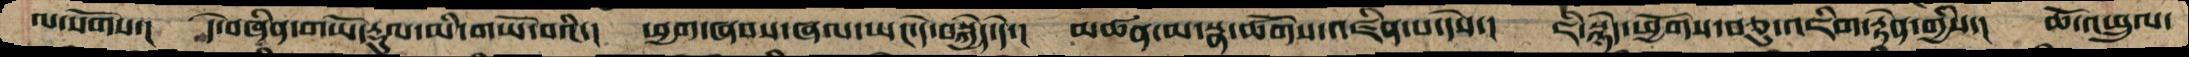ལ་སོགས་།  དེ་བཞིན་གཡོ་རྟུལ་མི་གཡོ་བའི་།  ཕྱག་ཞབས་ཞལ་ཡང་དེ་བསྐྱེད་དེ་།  མཚན་མ་སྣ་ཚོགས་འཛིན་པ་དེས་།  ཇི་སྙེད་ཕྱོགས་བཅུ་འཇིག་རྟེན་གྱིས་།  ཆོ་འཕྲུལ་
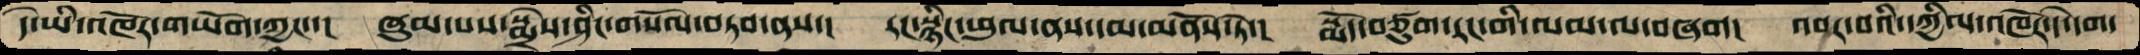དེ་ཡི་འཁོར་གཡོག་ཀྱང་་།  ཞུམ་པས་སྨྲེས་ཤིང་གསོལ་བཏབ་ནས་།  རང་སྙིང་ཕུལ་ནས་དམ་མནོས་ཏེ་།  སྨོད་བཙུག་རང་གི་ལམ་ལ་བཞག།  འབར་བའི་དཀྱིལ་འཁོར་དེ་དག་
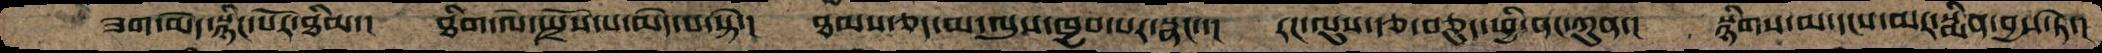ཟག་མེད་སྙིང་པོར་ཐིམ་།  ཐིག་ལེ་སྤྲོས་པ་མེད་པ་སྟེ་།  ཐམས་ཅད་མ་ལུས་ཁྱབ་པར་སྣང་་།  རང་ལུས་རྩ་བཅུད་ཕྱི་ནང་ཀུན་།  སྙིགས་མ་དངས་མར་སྨིན་བྱས་ཏེ་།
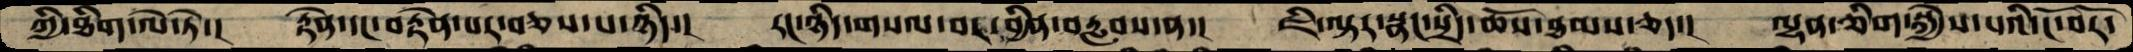ཀྱི་ཐིག་ལེ་ཏེ་།   རྟེན་དང་བརྟེན་པར་བཅས་པ་ཉིད་།  རང་ཉིད་གསལ་བར་བྱིན་བརླབས་ན་།  ཇི་ལྟར་སྣང་སྲིད་ཆོས་ཐམས་ཅད་།   ལྷན་ཅིག་སྐྱེས་པའི་ངོ་བོར་
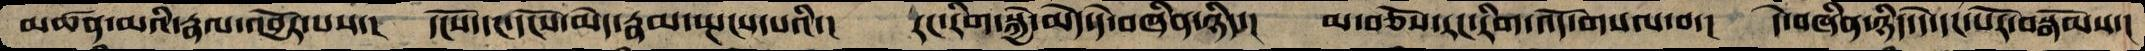མཚན་མའི་རྣལ་འབྱོར་པས་།  དངོས་དང་དངོས་མེད་རྣམ་སྤངས་པའི་།  རང་རིག་སྐྱེ་མེད་དེ་བཞིན་ཉིད་།  མ་བཅོས་རང་རིག་འོད་གསལ་བ་།  དེ་བཞིན་ཉིད་དེ་དང་པོར་བསྒོམས་།
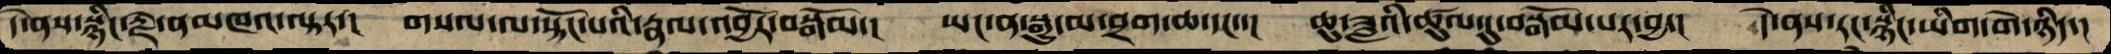དེ་ནས་སྙིང་རྗེ་ནམཁའ་ལྟར་།   གསལ་ལ་སྟོང་པའི་རྣལ་འབྱོར་བསྒོམ་།  ཡང་ན་སྒྱུ་མ་བྲག་ཆ་དང་་།  ཆུ་ཟླའི་ཚུལ་དུ་བསྒོམ་པར་བྱ་།  དེ་ནས་རང་སྙིང་ཡིག་གེ་ཉིད་།
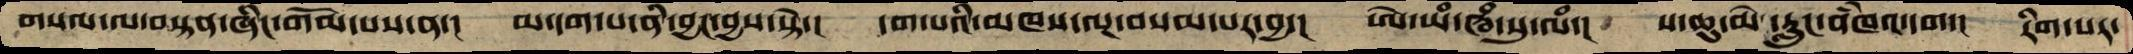གསལ་ལ་བསྟན་ཞིང་གོམ་པས་ན་།  མ་དག་པ་ནི་བྱང་བྱས་སྟེ་།  དག་པའི་མཁས་ལྔ་བསམ་པར་བྱ་།   ཨེ་ཡཾ་ཝཾ་སུ་ལཾ་།  ས་ཆུ་མེ་རླུང་ནཾཁའ་དག་།  རིག་པར་
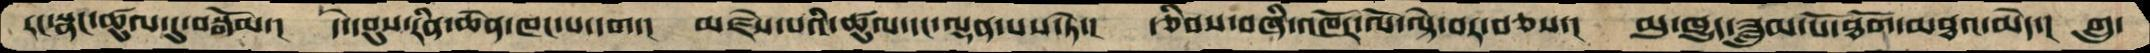རང་སྣང་ཚུལ་དུ་བསྒོམ་།   དེ་དབུས་རིན་ཆེན་ཁང་པ་དག་།  མཛེས་པའི་ཚུལ་དང་ལྡན་པས་ཏེ་།  རྩིབས་བཞི་འཁོར་ལོ་ལྟེ་བར་བཅས་།  མུ་ཁྱུད་ཟླུམ་པོ་ཐོག་མཐའ་མེད་།  གྲུ་
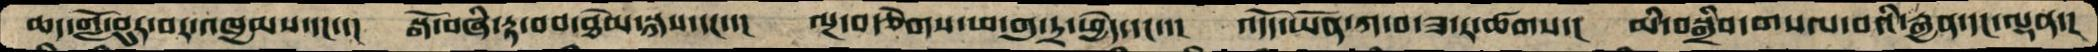ཆད་གློ་བུར་བར་འཁྱམས་དང་་།  སྒོ་བཞི་རྟ་བབ་ཐེམ་སྐས་དང་་།  ལྔ་བརྩེགས་ཕ་གུ་དྲ་ཕྱེད་དང་་།  འདོད་ཡོན་ཀ་བ་ཟ་ར་ཚགས་།  མི་བསྒྲིབ་གསལ་བའི་རྒྱན་དང་ལྡན་།
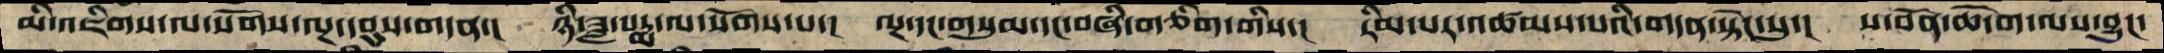མི་འཇིགས་ལ་སོགས་ལྔ་དབུས་གདན་།  ཉི་ཟླ་པདྨ་ལ་སོགས་པ་།  ལྔ་དང་གསུམ་དང་བཞི་གཅིག་གིས་།  རིམ་པར་འཚམས་པའི་གདན་སྟེང་སུ་།   ས་བོན་ཆོ་ག་ལས་བྱུང་
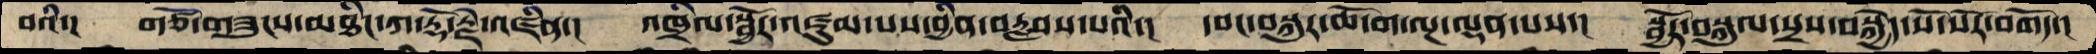བའི་།   གཙོ་གཟུངས་མཐིང་ཀ་རྡོ་རྗེ་འཛིན་།   འཁྲིལ་སྦྱོར་འཛུམ་པས་བྱིན་བརླབས་པའི་།  དབང་བསྐུར་ཆོ་ག་ལྔ་ལྡན་པས་།  སྦྱོར་བསྐུལ་སྲས་བསྐྱེད་སོ་སོར་བགོད་།
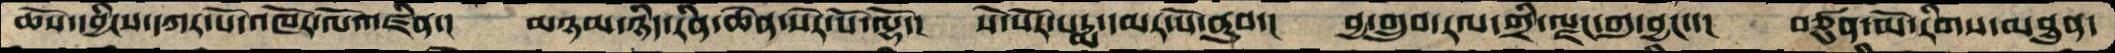ཆོས་དབྱིངས་དཀར་པོ་འཁོར་ལོ་འཛིན་།   མཉམ་ཉིད་རིན་ཆེན་སེར་པོ་ལྷོ་།  སེ་སོར་པདྨ་དམར་པོ་ནུབ་།  བྱ་གྲུབ་རལ་གྲི་ལྗང་གུ་བྱང་་།  བཙུན་མོ་རིགས་མཐུན་
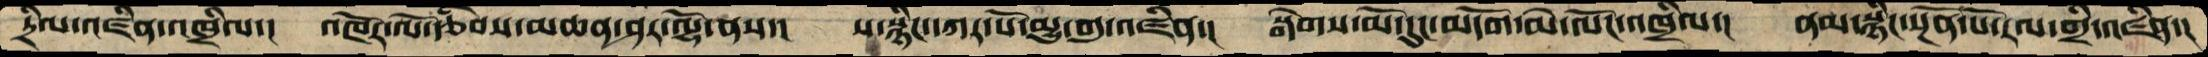དྲིལ་འཛིན་འཁྲིལ་།  འཁོར་ལོ་རྩིབས་མཆན་ཤར་ལྷོ་ནས་།  ས་སྙིང་དཀར་པོ་མྱུ་གུ་འཛིན་།  སྒེགས་མོ་དུང་མདོག་མེ་ལོང་འཁྲིལ་།  ནམ་སྙིང་སྔོན་པོ་རལ་གྲི་འཛིན་།
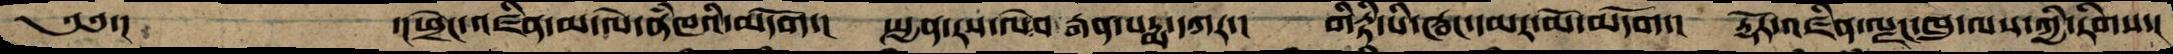༄༅་།         ་།ཕྲེང་འཛིན་མ་ལེ་ནཾཁའི་མདོག་།  སྤྱན་རས་ལེབ་རྒན་པདྨ་དཀར་།  གིརྟི་པི་ཝང་དམར་མོ་མདོག་།  རྡོར་འཛིན་ལྗང་ཁུ་ལས་ཀྱི་རིགས་།
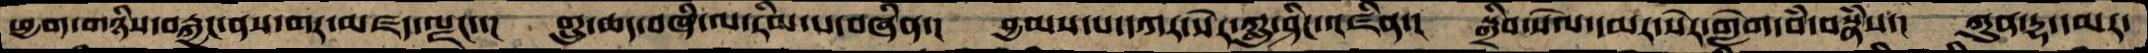ཕྱག་གཉིས་བརྐྱང་ནས་གར་མཛད་ལྗང་་།  གྲུ་ཆད་བཞི་ལ་རིམ་པ་བཞིན་།  བྱམས་པ་དཀར་སེར་ཀླུ་ཤིང་འཛིན་།  སྒྲིབ་སེལ་དམར་སེར་གླེག་བཾ་བསྣཾས་།  ཀུན་དྷ་དམར་
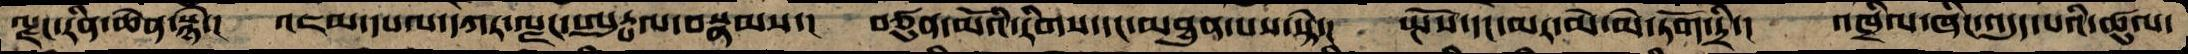ལྗང་རིན་ཆེན་སྙེ་།  འཇམ་དཔལ་དཀར་ལྗང་ཨུཏྤལ་བསྣམས་།  བཙུན་མོའི་་རིགས་དང་མཐུན་པས་སྟེ་།  སྤོས་དང་མར་མེ་མེ་ཏོག་དྲི་།  འཁྲིལ་ཞིང་འདུད་པའི་ཚུལ་
